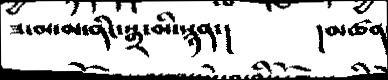ཟ་མ་མ་ནིང་སྒྲ་མི་སྙན་།    །མཚན
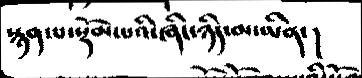སྙན་པ་སྡོམ་པའི་ཞིང་ཉིད་མ་ཡིན།
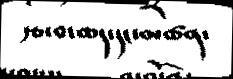རྩ་བ་ཆད་དང་མཚན་
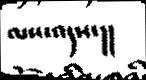ལས་འདས་།།
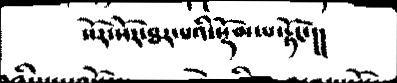སོར་སོར་ཐར་པའི་སྡོམ་པ་རྟོང་།།
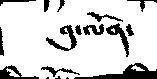བུ་ལོན་
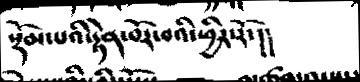སྡོམ་པའི་རྟེན་བོར་བའི་ཕྱིར་རོ་།།
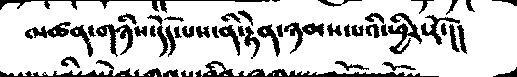མཚན་གཉིས་དོད་པས་ནི་རྟེན་ཉམས་པའི་ཕྱིར་རོ་།།
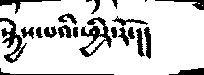སྐྱེས་པའི་ཕྱིར་རོ་།།
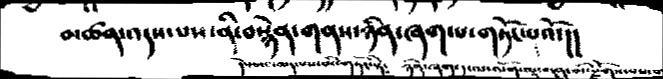མཚན་འདས་པས་ནི་བསྙེན་གནས་ཉིན་ཞག་པ་གཏོང་པའོ་།།
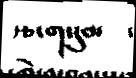རྩ་གསུམ  ་
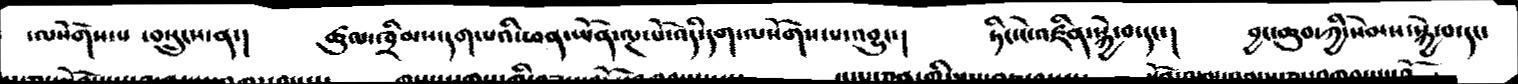་ལསེགོས་པ ་བསྲུངས་ན་།   ཚུལ་ཁྲིམས་དག་པའི་ཕན་ཡོན་ལྔ་པོ་འདི་དག་ལསོགས་པ་འབྱུང་།  ཏིང་ངེ་འཛིན་སྐྱེ་བ་དང་།   བྱང་ཆུབ་ཀྱི་སེམས་སྐྱེ་བ་དང་
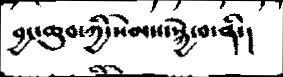བྱང་ཆུབ་ཀྱི་སེམས་སྐྱེ་བ་ནི་།
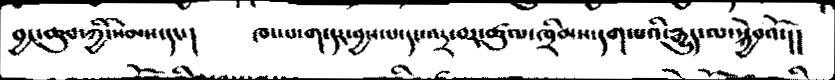བྱང་ཆུབ་ཀྱི་སེམས་དང་།    ཁང་པ་ག་དར་བྱས་པ་དང་འདྲ་བར་ཚུལ་ཁྲིམས་དག་པའི་རྒྱུད་ལ་སྐྱེབའོ་།།
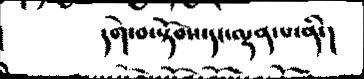དགེ་བ་སྟོབས་དང་ལྡན་པ་ནི་།
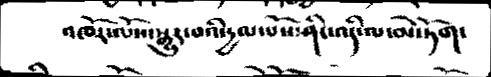འཁོར་ལོས་སྒྱུར་བའི་དྱལ་པོས་ཤིང་འདི་ལ་མེ་ཏོག་
